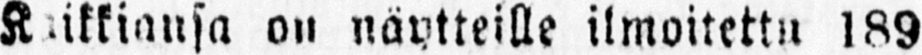Kaikkiansa on näytteille ilmoitettu 189
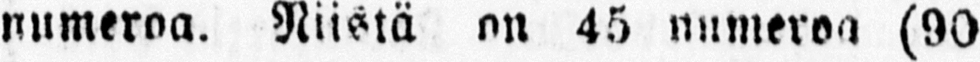numeroa. Niistä on 45 numeroa (90
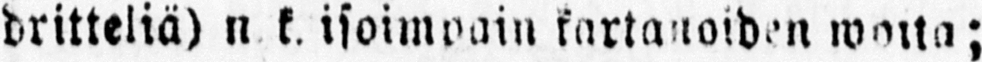dritteliä) n k. isoimpain kartanoiden woita;
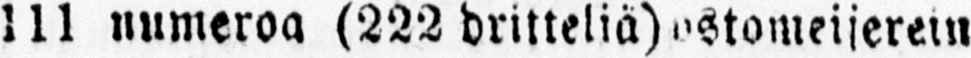111 numeroa (222 dritteliä) ostomeijerein
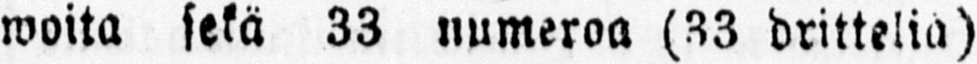woita sekä 33 numeroa (33 dritteliä)
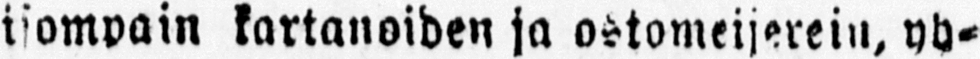isompain kartanoiden ja ostomeijerein, yh-
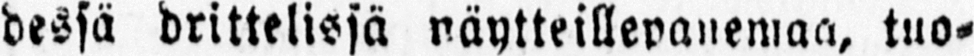dessä drittelissä näytteillepanemaa, tuo-
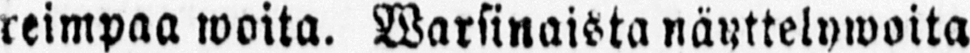reimpaa woita. Warsinaista näyttelywoita
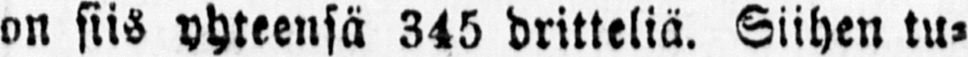on siis yhteensä 345 dritteliä. Siihen tu-
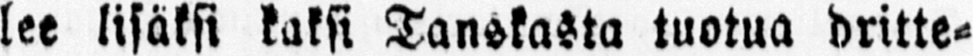lee lisäksi kaksi Tanskasta tuotua dritte-
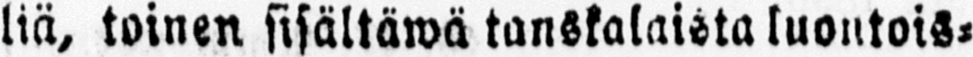liä, toinen sisältäwä tanskalaista luontois-
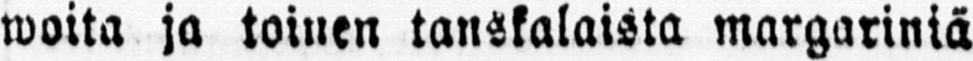woita ja toinen tanskalaista margariniä
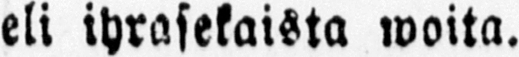eli ihrasekaista woita.
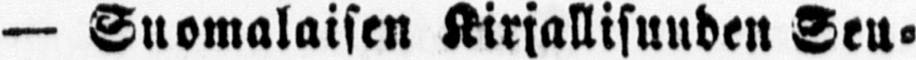— Suomalaisen Kirjallisuuden Seu-
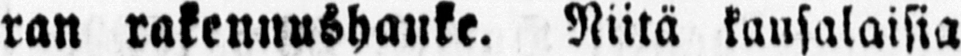ran rakennushanke. Niitä kansalaisia
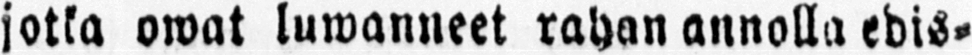jotka owat luwanneet rahan annolla edis-
